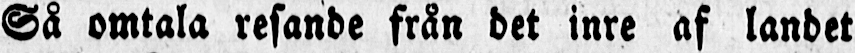Så omtala resande från det inre af landet
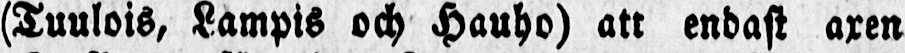(Tuulois, Lampis och Hauho) att endast axen
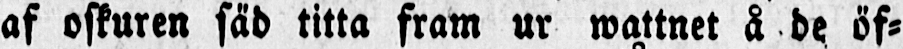af oskuren säd titta fram ur wattnet å de öf-
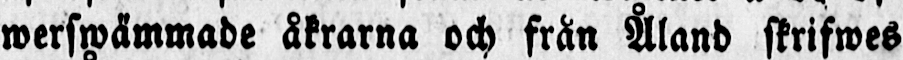werswämmade åkrarna och från Åland skrifwes
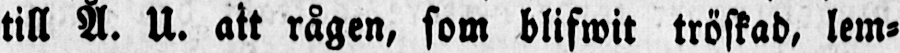till Å. U. att rågen, som blifwit tröskad, lem-
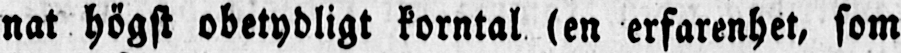nat högst obetydligt korntal (en erfarenhet, som
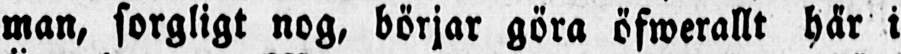man, sorgligt nog, börjar göra öfwerallt här i
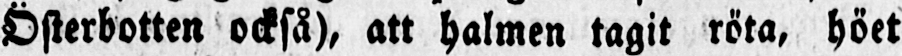Österbotten också), att halmen tagit röta, höet
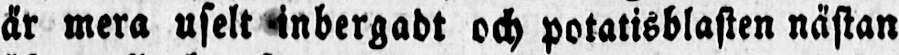är mera uselt inbergadt och potatisblasten nästan
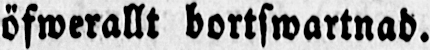öfwerallt bortswartnad.
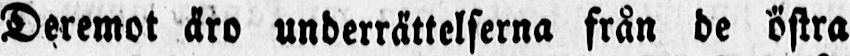Deremot äro underrättelserna från de östra
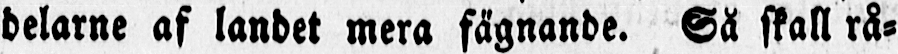delarne af landet mera fägnande. Så skall rå-
